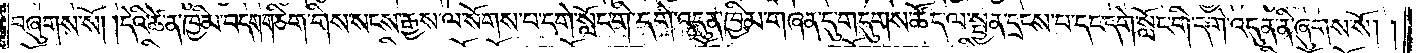བཞུགས་སོ། །དེའི་ཚེ་ན་ཁྱིམ་བདག་གཅིག་གིས་སངས་རྒྱས་ལ་སོགས་པ་དགེ་སློང་གི་དགེ་འདུན་ཁྱིམ་གཞན་དུ་གདུགས་ཚོད་ལ་སྤྱན་དྲངས་པ་དང་དགེ་སློང་གི་དགེ་འདུན་ནི་ཞུགས་སོ། །
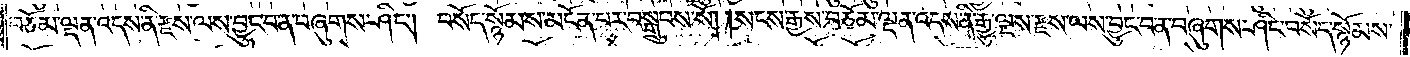བཅོམ་ལྡན་འདས་ནི་རྫས་ལས་བྱུང་བ་ན་བཞུགས་ཤིང༌། བསོད་སྙོམས་མངོན་པར་བསྒྲུབས་སོ། །སངས་རྒྱས་བཅོམ་ལྡན་འདས་ནི་རྒྱུ་ལྔས་རྫས་ལས་བྱུང་བ་ན་བཞུགས་ཤིང་བསོད་སྙོམས་
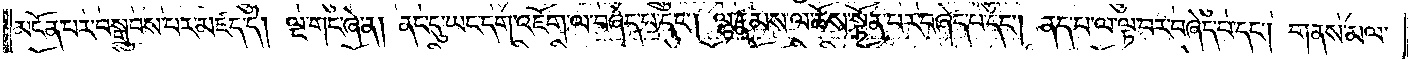མངོན་པར་བསྒྲུབས་པར་མཛད་དེ། ལྔ་གང་ཞེ་ན། ནང་དུ་ཡང་དག་འཇོག་ལ་བཞེད་པ་དང༌། ལྷ་རྣམས་ལ་ཆོས་སྟོན་པར་བཞེད་པ་དང༌། ནད་པ་ལ་ལྟ་བར་བཞེད་པ་དང༌། གནས་མལ་
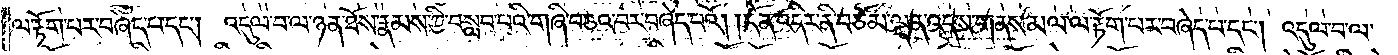ལ་རྟོག་པར་བཞེད་པ་དང༌། འདུལ་བ་ལ་ཉན་ཐོས་རྣམས་ཀྱི་བསླབ་པའི་གཞི་བཅའ་བར་བཞེད་པའོ། །དོན་འདིར་ནི་བཅོམ་ལྡན་འདས་གནས་མལ་ལ་རྟོག་པར་བཞེད་པ་དང༌། འདུལ་བ་ལ་
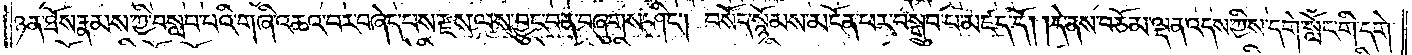ཉན་ཐོས་རྣམས་ཀྱི་བསླབ་པའི་གཞི་འཆའ་བར་བཞེད་པས་རྫས་ལས་བྱུང་བ་ན་བཞུགས་ཤིང༌། བསོད་སྙོམས་མངོན་པར་བསྒྲུབ་པ་མཛད་དོ། །དེ་ནས་བཅོམ་ལྡན་འདས་ཀྱིས་དགེ་སློང་གི་དགེ་
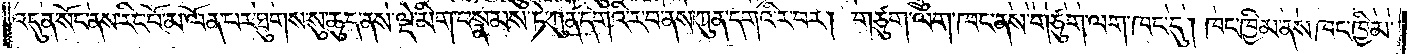འདུན་སོང་ནས་རིང་པོ་མ་ལོན་པར་ཐུགས་སུ་ཆུད་ནས་ལྡེ་མིག་བསྣམས་ཏེ་ཀུན་དགའི་ར་བ་ནས་ཀུན་དགའི་ར་བར། གཙུག་ལག་ཁང་ནས་གཙུག་ལག་ཁང་དུ། ཁང་ཁྱིམ་ནས་ཁང་ཁྱིམ་
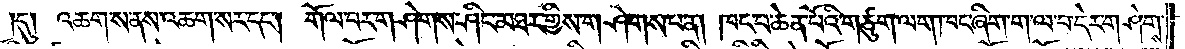དུ། འཆག་ས་ནས་འཆག་སར་དང༌། གོལ་བར་གཤེགས་ཤིང་མཐར་གྱིས་གཤེགས་པ་ན། ཁང་པ་ཆེན་པོའི་གཙུག་ལག་ཁང་ཞིག་ག་ལ་བ་དེར་གཤེགས་
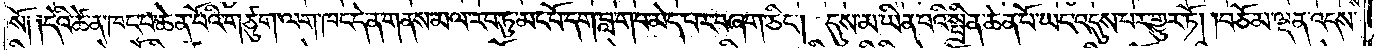སོ། །དེའི་ཚེ་ན་ཁང་པ་ཆེན་པོའི་གཙུག་ལག་ཁང་དེ་ན་གནས་མལ་རབ་ཏུ་མང་པོ་དག་བླ་གབ་མེད་པར་བཞག་ཅིང༌། དུས་མ་ཡིན་པའི་སྤྲིན་ཆེན་པོ་ཡང་འདུས་པར་གྱུར་རོ། །བཅོམ་ལྡན་འདས་
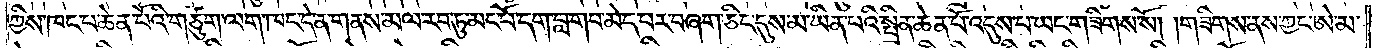ཀྱིས་ཁང་པ་ཆེན་པོའི་གཙུག་ལག་ཁང་དེ་ན་གནས་མལ་རབ་ཏུ་མང་པོ་དག་བླ་གབ་མེད་པར་བཞག་ཅིང་དུས་མ་ཡིན་པའི་སྤྲིན་ཆེན་པོ་འདུས་པ་ཡང་གཟིགས་སོ། །གཟིགས་ནས་ཀྱང་ཨེ་མ་
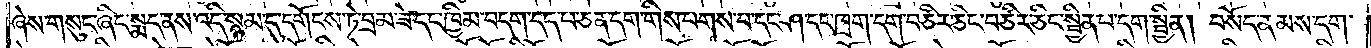ཞེས་གསུང་ཞིང་སྨད་ནས་འདི་སྙམ་དུ་དགོངས་ཏེ་བྲམ་ཟེ་དང་ཁྱིམ་བདག་དད་པ་ཅན་དག་གིས་པགས་པ་དང་ཤ་དང་ཁྲག་དག་བཙིར་ཅིང་བཙིར་ཅིང་སྦྱིན་པ་དག་སྦྱིན། བསོད་ནམས་དག་
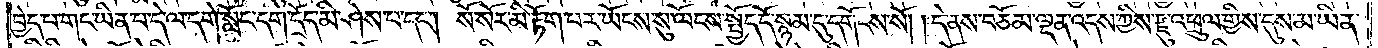བྱེད་པ་གང་ཡིན་པ་དེ་ལ་དགེ་སློང་དག་དྲོད་མི་ཤེས་པ་དང༌། སོ་སོར་མི་རྟོག་པར་ཡོངས་སུ་ལོངས་སྤྱོད་དོ་སྙམ་དུ་དགོངས་སོ། །དེ་ནས་བཅོམ་ལྡན་འདས་ཀྱིས་རྫུ་འཕྲུལ་གྱིས་དུས་མ་ཡིན་
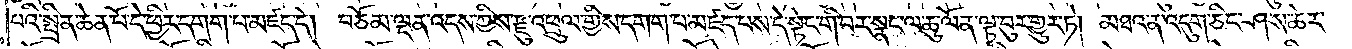པའི་སྤྲིན་ཆེན་པོ་དེ་ཕྱིར་དགག་པ་མཛད་དེ། བཅོམ་ལྡན་འདས་ཀྱིས་རྫུ་འཕྲུལ་གྱིས་དགག་པ་མཛད་པས་དེ་སྟེང་གི་བར་སྣང་ལ་ཆུ་ལོན་ལྟ་བུར་གྱུར་ཏེ། མཐའ་ན་འདུག་ཅིང་ཤས་ཆེར་
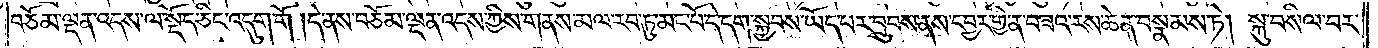བཅོམ་ལྡན་འདས་ལ་སྡོད་ཅིང་འདུག་གོ །དེ་ནས་བཅོམ་ལྡན་འདས་ཀྱིས་གནས་མལ་རབ་ཏུ་མང་པོ་དེ་དག་སྐྱབས་ཡོད་པར་བྲུབས་ནས་དབྱར་གྱི་ན་བཟའ་རས་ཆེན་བསྣམས་ཏེ། སྐུ་བསིལ་བར་
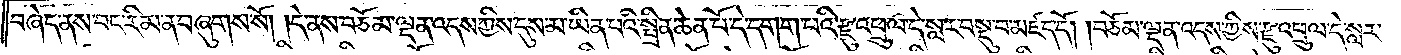བཞེད་ནས་བང་རིམ་ན་བཞུགས་སོ། །དེ་ནས་བཅོམ་ལྡན་འདས་ཀྱིས་དུས་མ་ཡིན་པའི་སྤྲིན་ཆེན་པོ་དེ་དགག་པའི་རྫུ་འཕྲུལ་དེ་སླར་བསྡུ་བ་མཛད་དོ། །བཅོམ་ལྡན་འདས་ཀྱིས་རྫུ་འཕྲུལ་དེ་སླར་
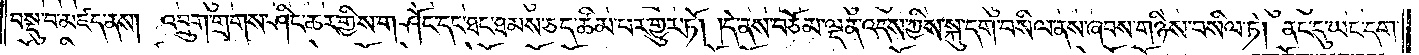བསྡུ་བ་མཛད་ནས། འབྲུག་གྲགས་ཤིང་ཆར་གྱིས་གཤོང་དང་ཐང་ཐམས་ཅད་ཚིམ་པར་གྱུར་ཏོ། །དེ་ནས་བཅོམ་ལྡན་འདས་ཀྱིས་སྐུ་དག་བསིལ་ནས་ཞབས་གཉིས་བསིལ་ཏེ། ནང་དུ་ཡང་དག་
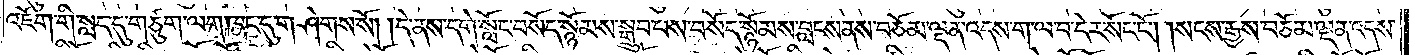འཇོག་གི་སླད་དུ་གཙུག་ལག་ཁང་དུ་གཤེགས་སོ། །དེ་ནས་དགེ་སློང་བསོད་སྙོམས་སྒྲུབ་པས་བསོད་སྙོམས་བླངས་ནས་བཅོམ་ལྡན་འདས་ག་ལ་བ་དེར་སོང་ངོ༌། །སངས་རྒྱས་བཅོམ་ལྡན་འདས་
